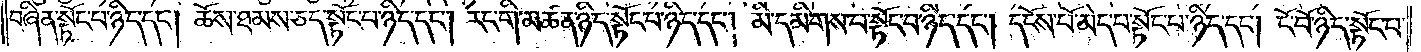བཞིན་སྟོང་པ་ཉིད་དང༌། ཆོས་ཐམས་ཅད་སྟོང་པ་ཉིད་དང༌། རང་གི་མཚན་ཉིད་སྟོང་པ་ཉིད་དང༌། མི་དམིགས་པ་སྟོང་པ་ཉིད་དང༌། དངོས་པོ་མེད་པ་སྟོང་པ་ཉིད་དང༌། ངོ་བོ་ཉིད་སྟོང་པ་
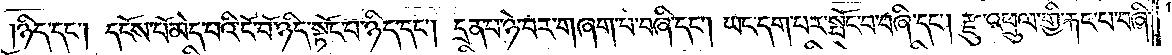ཉིད་དང༌། དངོས་པོ་མེད་པའི་ངོ་བོ་ཉིད་སྟོང་པ་ཉིད་དང༌། དྲན་པ་ཉེ་བར་གཞག་པ་བཞི་དང༌། ཡང་དག་པར་སྤོང་བ་བཞི་དང༌། རྫུ་འཕྲུལ་གྱི་རྐང་པ་བཞི་
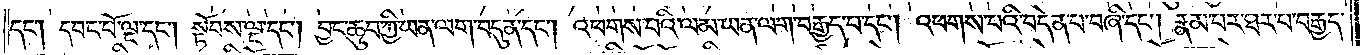དང༌། དབང་པོ་ལྔ་དང༌། སྟོབས་ལྔ་དང༌། བྱང་ཆུབ་ཀྱི་ཡན་ལག་བདུན་དང༌། འཕགས་པའི་ལམ་ཡན་ལག་བརྒྱད་པ་དང༌། འཕགས་པའི་བདེན་པ་བཞི་དང༌། རྣམ་པར་ཐར་པ་བརྒྱད་
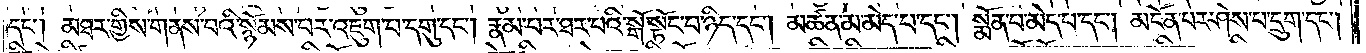དང༌། མཐར་གྱིས་གནས་པའི་སྙོམས་པར་འཇུག་པ་དགུ་དང༌། རྣམ་པར་ཐར་པའི་སྒོ་སྟོང་པ་ཉིད་དང༌། མཚན་མ་མེད་པ་དང༌། སྨོན་པ་མེད་པ་དང༌། མངོན་པར་ཤེས་པ་དྲུག་དང༌།
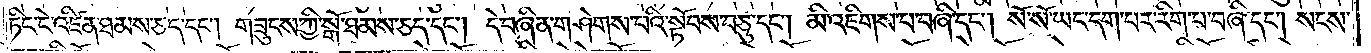ཏིང་ངེ་འཛིན་ཐམས་ཅད་དང༌། གཟུངས་ཀྱི་སྒོ་ཐམས་ཅད་དང༌། དེ་བཞིན་གཤེགས་པའི་སྟོབས་བཅུ་དང༌། མི་འཇིགས་པ་བཞི་དང༌། སོ་སོ་ཡང་དག་པར་རིག་པ་བཞི་དང༌། སངས་
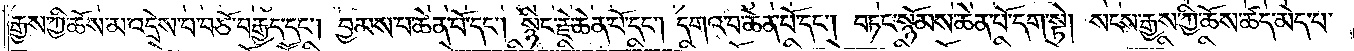རྒྱས་ཀྱི་ཆོས་མ་འདྲེས་པ་བཅོ་བརྒྱད་དང༌། བྱམས་པ་ཆེན་པོ་དང༌། སྙིང་རྗེ་ཆེན་པོ་དང༌། དགའ་བ་ཆེན་པོ་དང༌། བཏང་སྙོམས་ཆེན་པོ་དག་སྟེ། སངས་རྒྱས་ཀྱི་ཆོས་ཚད་མེད་པ་
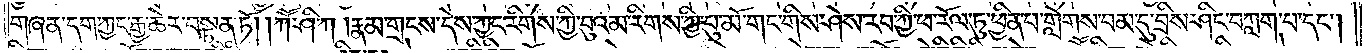གཞན་དག་ཀྱང་རྒྱ་ཆེར་བསྟན་ཏོ། །ཀཽ་ཤི་ཀ །རྣམ་གྲངས་དེས་ཀྱང་རིགས་ཀྱི་བུའམ་རིགས་ཀྱི་བུ་མོ་གང་གིས་ཤེས་རབ་ཀྱི་ཕ་རོལ་ཏུ་ཕྱིན་པ་གླེགས་བམ་དུ་བྲིས་ཤིང་བཀླག་པ་དང༌།
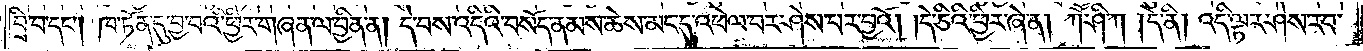བྲི་བ་དང༌། །ཁ་ཏོན་དུ་བྱ་བའི་ཕྱིར་གཞན་ལ་བྱིན་ན། དེ་བས་འདིའི་བསོད་ནམས་ཆེས་མང་དུ་འཕེལ་བར་ཤེས་པར་བྱའོ། །དེ་ཅིའི་ཕྱིར་ཞེ་ན། ཀཽ་ཤི་ཀ །དེ་ནི། འདི་ལྟར་ཤེས་རབ་
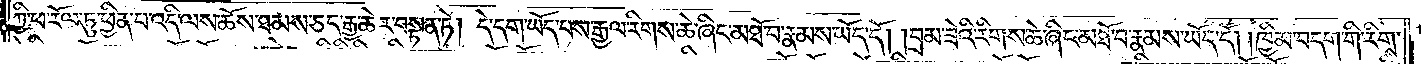ཀྱི་ཕ་རོལ་ཏུ་ཕྱིན་པ་འདི་ལས་ཆོས་ཐམས་ཅད་རྒྱ་ཆེར་བསྟན་ཏེ། དེ་དག་ཡོད་པས་རྒྱལ་རིགས་ཆེ་ཞིང་མཐོ་བ་རྣམས་ཡོད་དོ། །བྲམ་ཟེའི་རིགས་ཆེ་ཞིང་མཐོ་བ་རྣམས་ཡོད་དོ། །ཁྱིམ་བདག་གི་རིགས་
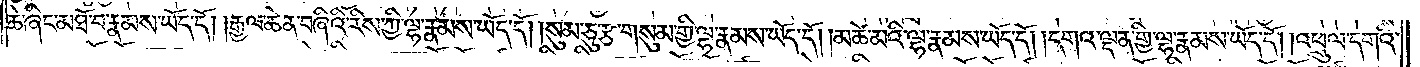ཆེ་ཞིང་མཐོ་བ་རྣམས་ཡོད་དོ། །རྒྱལ་ཆེན་བཞིའི་རིས་ཀྱི་ལྷ་རྣམས་ཡོད་དོ། །སུམ་ཅུ་རྩ་གསུམ་གྱི་ལྷ་རྣམས་ཡོད་དོ། །མཚེ་མའི་ལྷ་རྣམས་ཡོད་དོ། །དགའ་ལྡན་གྱི་ལྷ་རྣམས་ཡོད་དོ། །འཕྲུལ་དགའི་
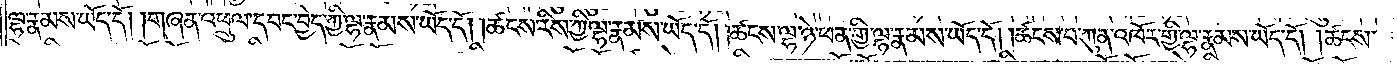ལྷ་རྣམས་ཡོད་དོ། །གཞན་འཕྲུལ་དབང་བྱེད་ཀྱི་ལྷ་རྣམས་ཡོད་དོ། །ཚངས་རིས་ཀྱི་ལྷ་རྣམས་ཡོད་དོ། །ཚངས་ལྷ་ཉེ་ཕན་གྱི་ལྷ་རྣམས་ཡོད་དོ། །ཚངས་པ་ཀུན་འཁོར་གྱི་ལྷ་རྣམས་ཡོད་དོ། །ཚངས་
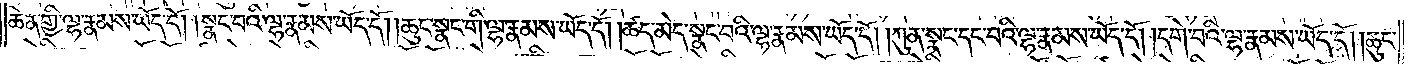ཆེན་གྱི་ལྷ་རྣམས་ཡོད་དོ། །སྣང་བའི་ལྷ་རྣམས་ཡོད་དོ། །ཆུང་སྣང་གི་ལྷ་རྣམས་ཡོད་དོ། །ཚད་མེད་སྣང་བའི་ལྷ་རྣམས་ཡོད་དོ། །ཀུན་སྣང་དང་བའི་ལྷ་རྣམས་ཡོད་དོ། །དགེ་བའི་ལྷ་རྣམས་ཡོད་དོ། །ཆུང་
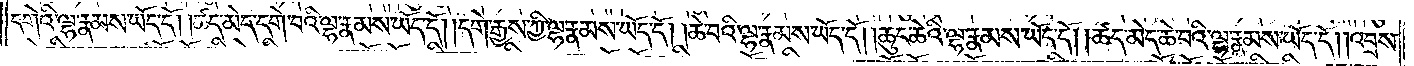དགེའི་ལྷ་རྣམས་ཡོད་དོ། །ཚད་མེད་དགེ་བའི་ལྷ་རྣམས་ཡོད་དོ། །དགེ་རྒྱས་ཀྱི་ལྷ་རྣམས་ཡོད་དོ། །ཆེ་བའི་ལྷ་རྣམས་ཡོད་དོ། །ཆུང་ཆེའི་ལྷ་རྣམས་ཡོད་དོ། །ཚད་མེད་ཆེ་བའི་ལྷ་རྣམས་ཡོད་དོ། །འབྲས་
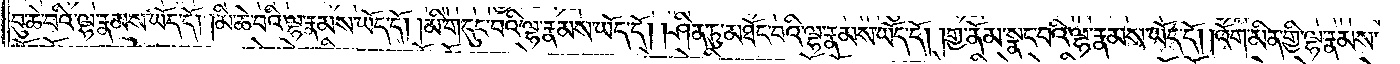བུ་ཆེ་བའི་ལྷ་རྣམས་ཡོད་དོ། །མི་ཆེ་བའི་ལྷ་རྣམས་ཡོད་དོ། །མི་གདུང་བའི་ལྷ་རྣམས་ཡོད་དོ། །ཤིན་ཏུ་མཐོང་བའི་ལྷ་རྣམས་ཡོད་དོ། །གྱ་ནོམ་སྣང་བའི་ལྷ་རྣམས་ཡོད་དོ། །འོག་མིན་གྱི་ལྷ་རྣམས་
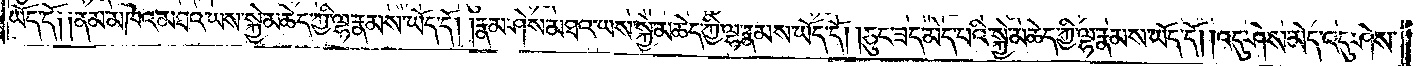ཡོད་དོ༑ ༑ནམ་མཁའ་མཐའ་ཡས་སྐྱེ་མཆེད་ཀྱི་ལྷ་རྣམས་ཡོད་དོ། །རྣམ་ཤེས་མཐའ་ཡས་སྐྱེ་མཆེད་ཀྱི་ལྷ་རྣམས་ཡོད་དོ། །ཅུང་ཟད་མེད་པའི་སྐྱེ་མཆེད་ཀྱི་ལྷ་རྣམས་ཡོད་དོ། །འདུ་ཤེས་མེད་འདུ་ཤེས་
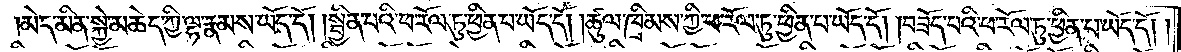མེད་མིན་སྐྱེ་མཆེད་ཀྱི་ལྷ་རྣམས་ཡོད་དོ། །སྦྱིན་པའི་ཕ་རོལ་ཏུ་ཕྱིན་པ་ཡོད་དོ། །ཚུལ་ཁྲིམས་ཀྱི་ཕ་རོལ་ཏུ་ཕྱིན་པ་ཡོད་དོ། །བཟོད་པའི་ཕ་རོལ་ཏུ་ཕྱིན་པ་ཡོད་དོ། །
